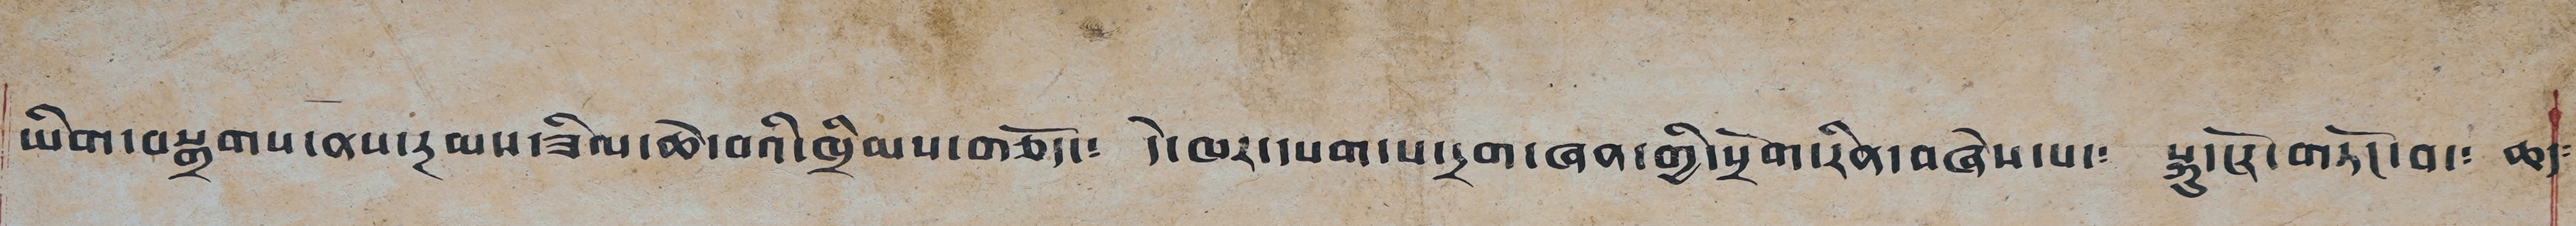ཡིག་བསྒྲགས་ནས་རྔམས་ཟིལ་ཆེ་བའི་ཁྲིམས་གཅོད་༴ དེ་ཁར་དཔག་པ་དྲག་ཞན་གྱི་སྲོག་རིན་བཞེས་པ་༴ སྐུ་ངོར་གཏོང་བ་༴ ཆད༴
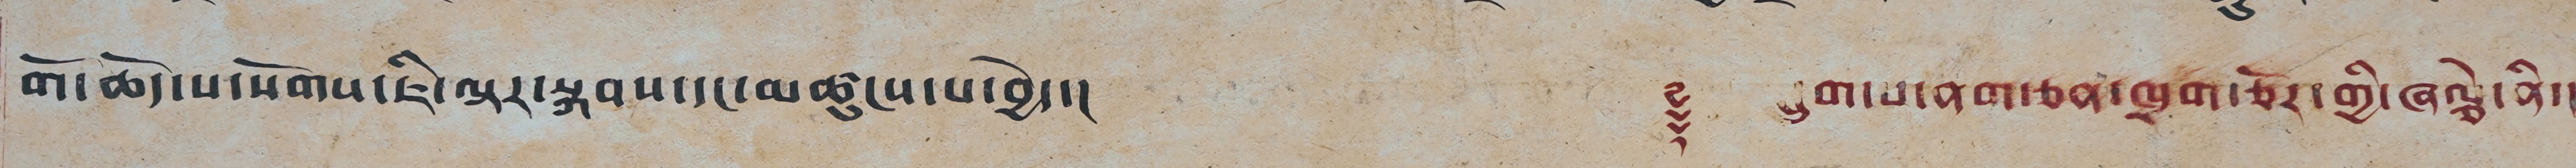གོ་ཆོད་པ་སོགས་ཇི་ལྟར་སྐབས་དང་མཚུངས་པ་བྱེད་། ༈ དྲུག་པ་ནག་ཅན་ཁྲག་ཅོར་གྱི་ཞལྕེ་ནི་།
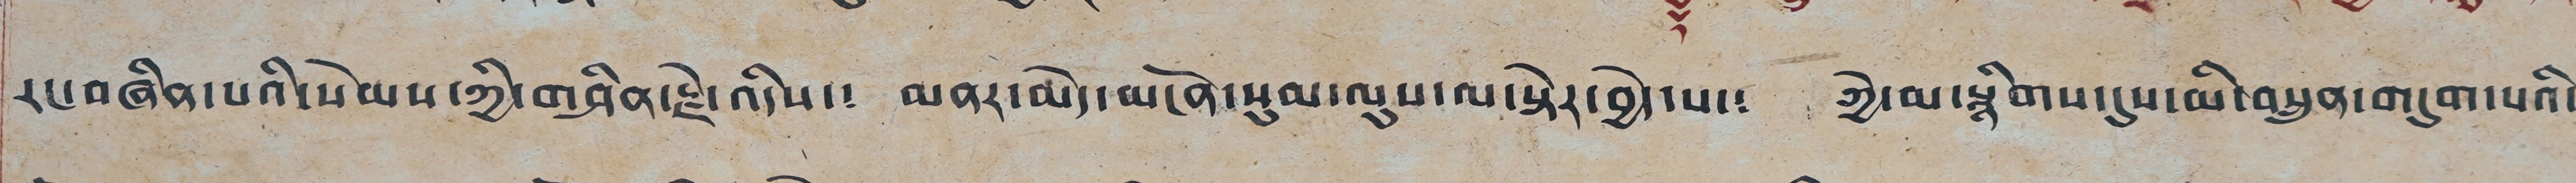རང་བཞིན་པའི་སེམས་ཀྱི་གཤིན་རྗེ་འདིས་༴ མནར་མེད་མངོན་སུམ་ལུས་ལ་སྟེར་བྱེད་པ་༴ ཀྱེ་མ་སྙིགས་དུས་མི་བསྲུན་གདུག་པའི་
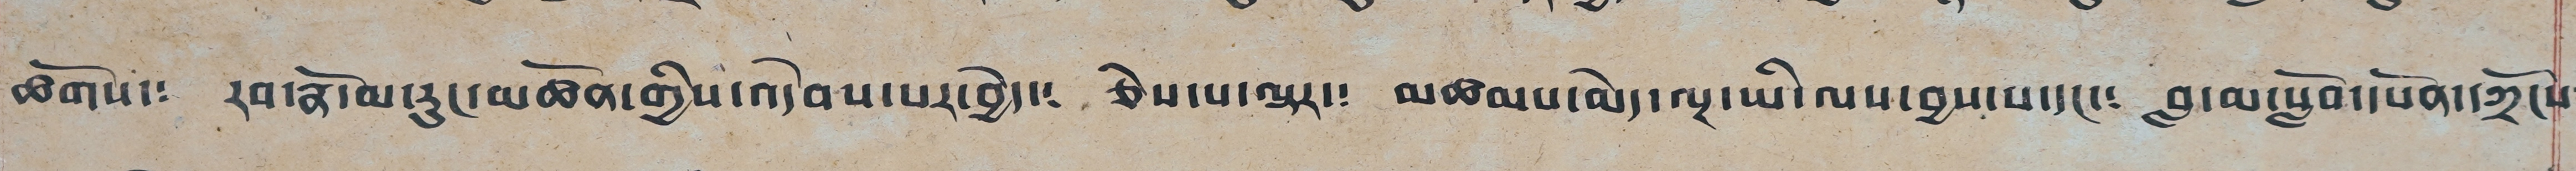ཚོགས་༴ རབ་རྣོ་མ་རུང་མཚོན་གྱིས་འདེབས་པར་བྱེད་༴ ཅེས་པ་ལྟར་༴ མཚམས་མེད་ལྔ་ཡི་ལས་བྱས་པ་དང་༴ བླ་མ་སློབ་དཔོན་དཀྲོངས༴
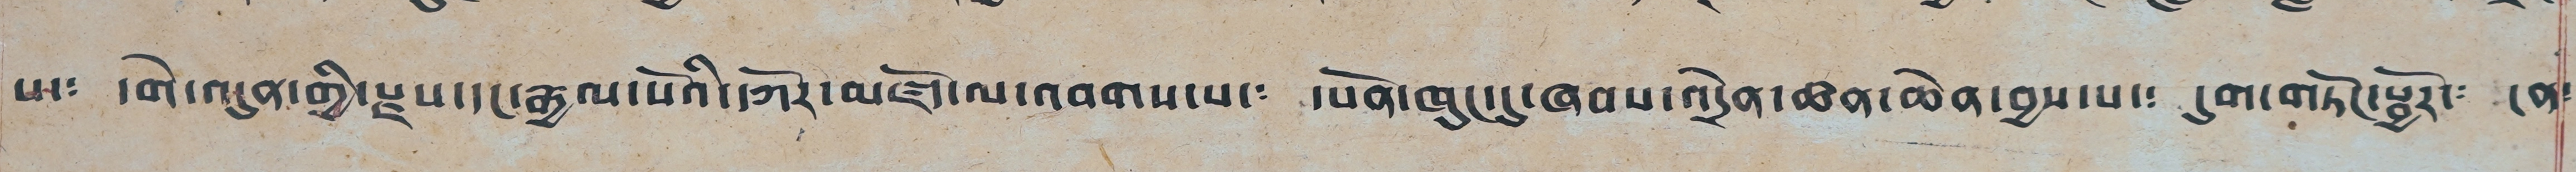པ་༴ དགེ་འདུན་གྱི་རྫས་དང་རྒྱལ་པོའི་དཀོར་མཛོད་ལ་འབགས་པ་༴ དཔོན་ཁུང་དུ་ཞབས་འདྲེན་ཚན་ཆེན་བྱས་པ་༴ དུག་གཏོང་སྦྱོར་༴ ངན་
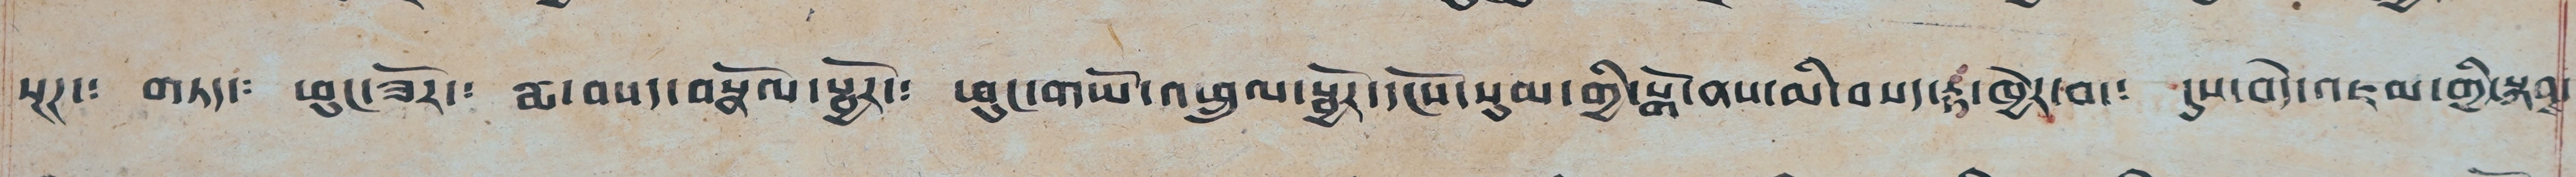སྔཊ་༴ གཏད་༴ ཕྱུང་ཟོར་༴ རྨ་བསད་བསྣོལ་སྦྱོར་༴ ཕུང་གཡོ་འཕྲུལ་སྦྱོར་དངོས་སུམ་གྱི་སྒོ་ནས་མི་བསད་རྟ་ཁྱེར་བ་༴ དུས་བདེ་འཇམ་གྱི་སྐབས་
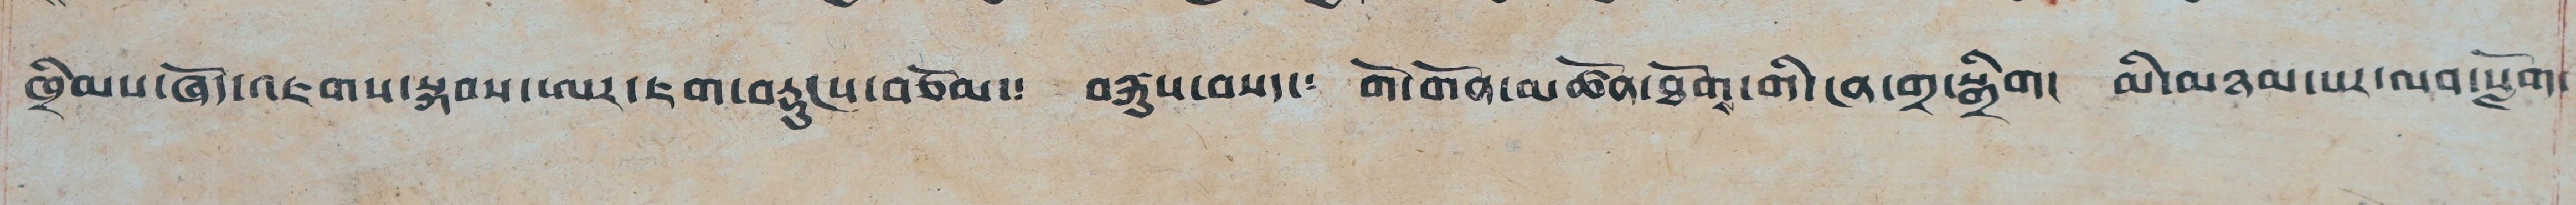ཁྲིམས་ཞོད་འཇགས་སྐབས་ཨར་ཇག་བརྡུངས་བཅོམ་༴ བརྐུས་བསད་༴ གོ་གོན་མཚོན་ཐོག་གི་ངན་གྲ་སྒྲིག། མི་མཉམ་པར་ལབ་སློག་
